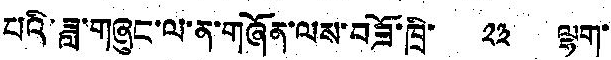པའི་ཟླ་གཞུང་ལ་ན་གཞོན་ལས་བཟོ་ཁྲི་ ༢༣ ལྷག་
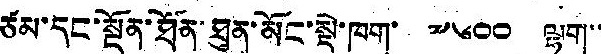ཙམ་དང་སྔོན་ཐོན་ཐུན་མོང་སྡེ་ཁག་ ༧༦༠༠ ལྷག་་
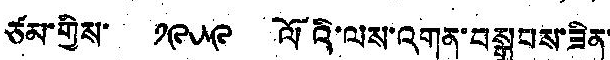ཙམ་གྱིས་ ༡༩༥༩ ལོའི་ལས་འགན་བསྒྲུབས་ཟིན་
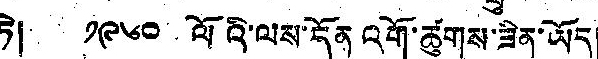ཏེ། ༡༩༦༠ ལོའི་ལས་དོན འགོ་ཚུགས་ཟིན་ཡོད།
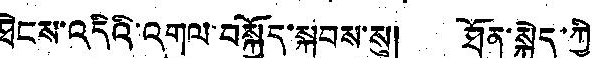ཐེངས་འདིའི་འགུལ་བསྐྱོད་སྐབས་སུ། ཐོན་སྐྱེད་ཀྱི་
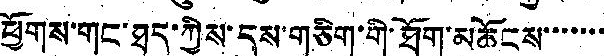ཕྱོགས་གང་ཐད་ཀྱིས་དུས་གཅིག་གི་ཐོག་མཆོངས་་་་་་་
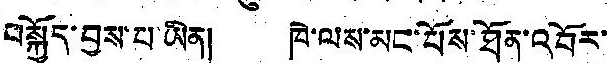བསྐྱོད་བྱས་པ་ཡིན། ཁེ་ལས་མང་པོས་ཐོན་འབོར་
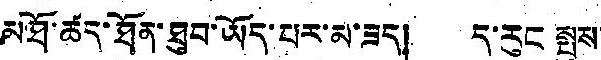མཐོ་ཚད་ཐོན་ཐུབ་ཡོད་པར་མ་ཟད། ད་རུང སྤུས་
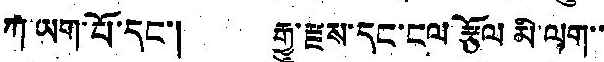ཀ་ཡག་པོ་དང་། རྒྱུ་རྫས་དང་ངལ རྩོལ མི་ལག་་
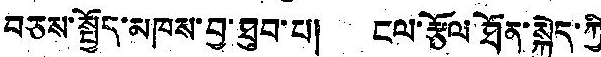བཅས་སྤྱོད་མཁས་བྱ་ཐུབ་པ། ངལ་རྩོལ་ཐོན་སྐྱེད་ཀྱི
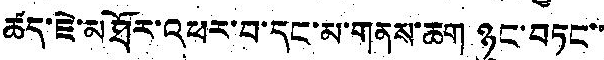ཚད་ཇེ་མཐོར་འཕར་བ་དང་མ་གནས་ཆག ཉུང་བཏང་་
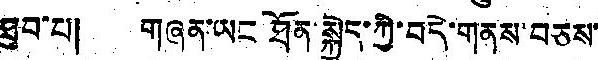ཐུབ་པ། གཞན་ཡང ཐོན་སྐྱེད་ཀྱི་བདེ་གནས་བཅས་
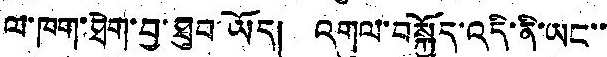ལ་ཁག་ཐེག་བྱ་ཐུབ་ཡོད། འགུལ་བསྐྱོད་འདི་ནི་ཡང་་
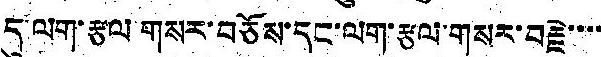དུ་ལག་རྩལ གསར་བཅོས་དང་ལག་རྩལ་གསར་བརྗེ་་་་
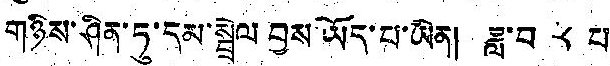གཉིས་ཤིན་ཏུ་དམ་སྦྲེལ བྱས་ཡོད་པ་ཡིན། ཟླ་བ ༨ པ
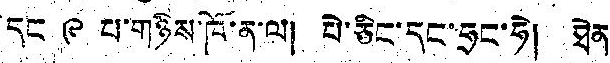དང ༩ པ་གཉིས་ཁོ་ན་ལ། པེ་ཅིང་དང་ཧྲང་ཧེ། ཐེན
